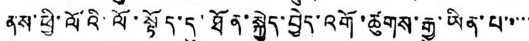ནས་ཕྱི་ལོའི་ལོ་སྟོད་ད་ཐོན་སྐྱེད་བྱེད་འགོ་ཚུགས་རྒྱུ་ཡིན་པ་་་་་
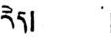རེད། །
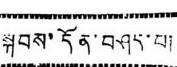སྐབས་དོན་བཤད་པ།
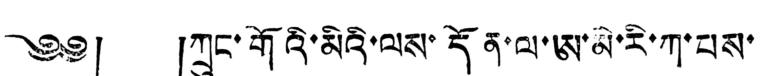༄༅། །ཀྲུང་གོའི་མིའི་ལས་དོན་ལ་ཨ་མེ་རི་ཀ་པས་
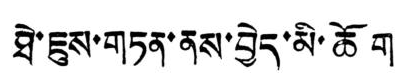ཐེ་ཇུས་གཏན་ནས་བྱེད་མི་ཆོག
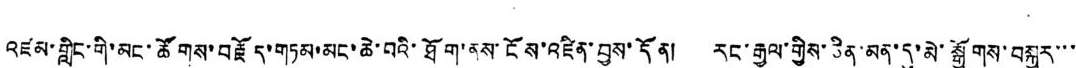འཛམ་གླིང་གི་མང་ཚོགས་བརྗོད་གཏམ་མང་ཆེ་བའི་ཐོག་ནས་ངོས་འཛིན་བྱས་དོན། རང་རྒྱལ་གྱིས་ཅིན་མན་དུ་མེ་སྒྱོགས་བསྐྱར་་་
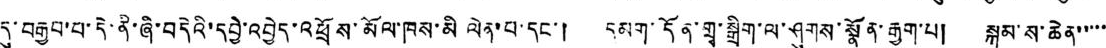དུ་བརྒྱབ་པ་དེ་ནི་ཞི་བདེའི་དབྱེ་འབྱེད་འཕྲོས་མོལ་ཁས་མི ལེན་པ་དང་། དམག་དོན་གྲྭ་སྒྲིག་ལ་ཤུགས་སྣོན་རྒྱག་པ། སྐམ་ས་ཆེན་་་་་
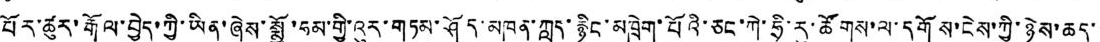པོར་ཚུར་རྒོལ་བྱེད་ཀྱི་ཡིན་ཞེས་སྨྱོ་ཧམ་གྱི་འུར་གཏམ་ཤོད་མཁན་ཀླད་རྙིང་མཁྲེག་པོའི་ཅང་ཀེ་ཧྲི་རུ་ཚོགས་ལ་དགོས་ངེས་ཀྱི་ཉེས་ཆད་་
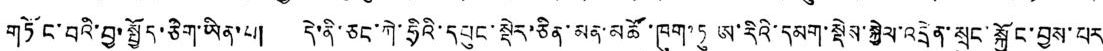གཏོང་བའི་བྱ་སྤྱོད་ཅིག་ཡིན་པ། དེ་ནི་ཅང་ཀེ་ཧྲིའི་དཔུང་སྡེར་ཅིན་མན་མཚོ་ཁུག་ཏུ ཨ་རིའི་དམག་སྡེས་སྐྱེལ་འདྲེན་སྲུང་སྐྱོང་བྱས་པར་
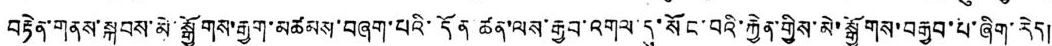བརྟེན་གནས་སྐབས་མེ་སྒྱོགས་རྒྱག་མཚམས་བཞག་པའི་དོན་ཚན་ལས་རྒྱབ་འགལ་དུ་སོང་བའི་རྐྱེན་གྱིས་མེ་སྒྱོགས་བརྒྱབ་པ་ཞིག་རེད།
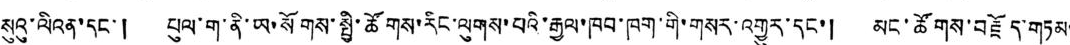སུའུ་ལིའན་དང་། པུལ་ག་ནི་ཡ་སོགས་སྤྱི་ཚོགས་རིང་ལུགས་པའི་རྒྱལ་ཁབ་ཁག་གི་གསར་འགྱུར་དང་། མང་ཚོགས་བརྗོད་གཏམ་
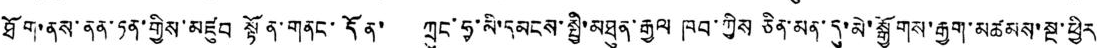ཐོག་ནས་ནན་ཏན་གྱིས་མཛུབ སྟོན་གནང་དོན་ ཀྲུང་ཧྭ་མི་དམངས་སྤྱི་མཐུན་རྒྱལ ཁབ་ཀྱིས ཅིན་མན་དུ་མེ་སྒྱོགས་རྒྱག་མཚམས་སྔ་ཕྱིར་
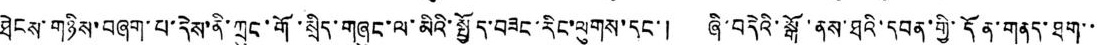ཐེངས་གཉིས་བཞག་པ་དེས་ནི་ཀྲུང་གོ་སྲིད་གཞུང་ལ་མིའི་སྤྱོད་བཟང་རིང་ལུགས་དང་། ཞི་བདེའི་སྒོ་ནས་ཐའི་དབན་གྱི་དོན་གནད་ཐག་་་
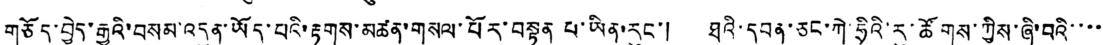གཅོད་བྱེད་རྒྱུའི་བསམ་འདུན་ཡོད་པའི་རྟགས་མཚན་གསལ་པོར་བསྟན པ་ཡིན་རུང་། ཐའི་དབན་ཅང་ཀེ་ཧྲིའི་རུ་ཚོགས་ཀྱིས་ཞི་བའི་་་་་
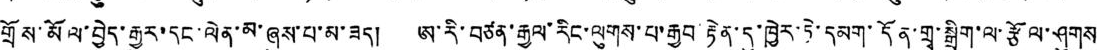གྲོས་མོལ་བྱེད་རྒྱུར་དང་ལེན་མ་ཞུས་པ་མ་ཟད། ཨ་རི་བཙན་རྒྱལ་རིང་ལུགས་པ་རྒྱབ་རྟེན་དུ་ཁྱེར་ཏེ་དམག་དོན་གྲྭ་སྒྲིག་ལ་རྩོལ་ཤུགས་
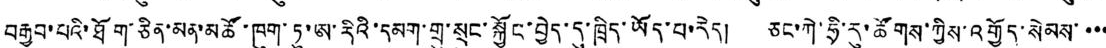བརྒྱབ་པའི་ཐོག་ཅིན་མན་མཚོ་ཁུག་ཏུ་ཨ་རིའི་དམག་གྲུ་སྲུང་སྐྱོང་བྱེད་དུ་ཁྲིད་ཡོད་པ་རེད། ཅང་ཀེ་ཧྲི་རུ་ཚོགས་ཀྱིས་འགྱོད་སེམས་་་་
